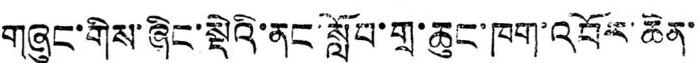གཞུང་གིས་ཞིང་སྡེའི་ནང་སློབ་གྲ་ཆུང་ཁག་འབོར་ཆེན་
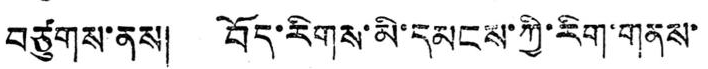བཙུགས་ནས། བོད་རིགས་མི་དམངས་ཀྱི་རིག་གནས་
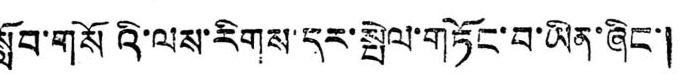སློབ་གསོའི་ལས་རིགས་དར་སྤེལ་གཏོང་བ་ཡིན་ཞིང་།
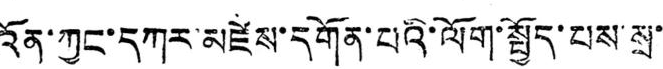འོན་ཀྱང་དཀར་མཛེས་དགོན་པའི་ལོག་སྤྱོད་པས་སྲ་་་
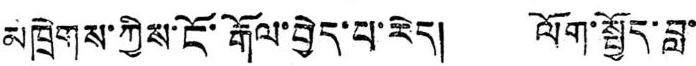མཁྲེགས་ཀྱིས་ངོ་རྒོལ་བྱེད་པ་རེད། ལོག་སྤྱོད་བླ་
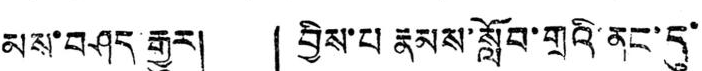མས་བཤད རྒྱུར། 「བྱིས་པ རྣམས་སློབ་གྲའི་ནང་དུ་
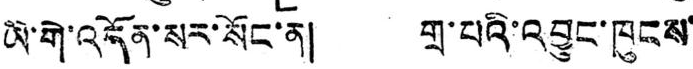ཡི་གེ་འདོན་སར་སོང་ན། གྲ་པའི་འབྱུང་ཁུངས་
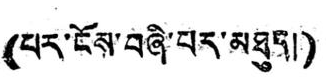(པར་ངོས་བཞི་པར་མཐུད།)
